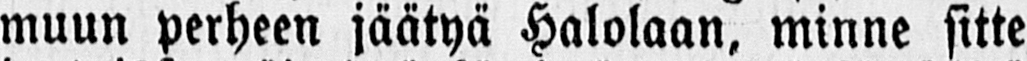muun perheen jäätyä Halolaan, minne sitte
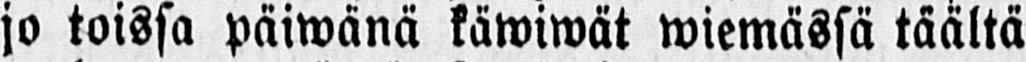jo toissa päiwänä käwiwät wiemässä täältä
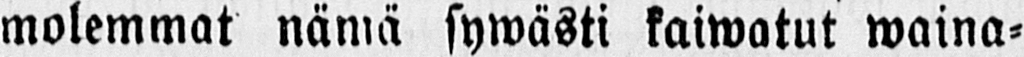molemmat nämä sywästi kaiwatut waina-
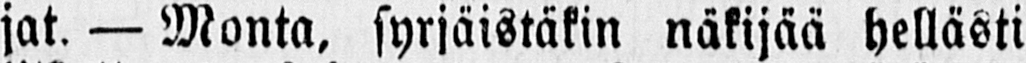jat. — Monta, syrjäistäkin näkijää hellästi
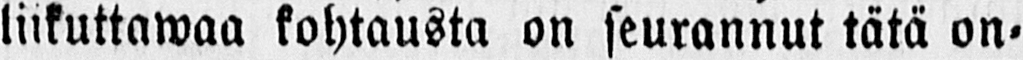liikuttawaa kohtausta on seurannut tätä on-
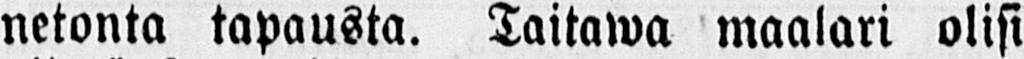netonta tapausta. Taitawa maalari olisi
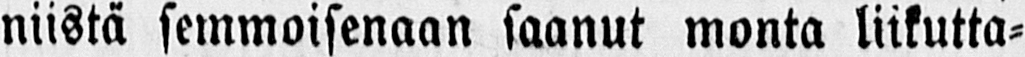niistä semmoisenaan saanut monta liikutta-
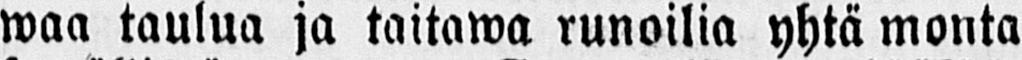waa taulua ja taitawa runoilia yhtä monta
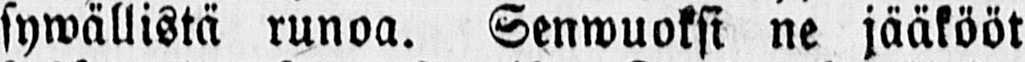sywällistä runoa. Senwuoksi ne jääkööt
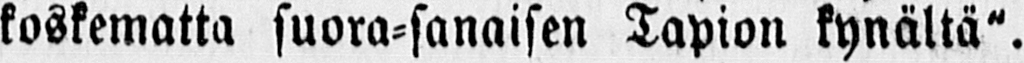koskematta suora-sanaisen Tapion kynältä".
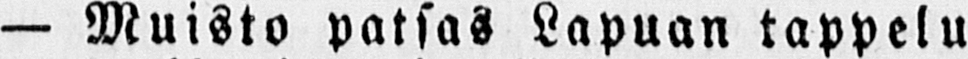— Muisto patsas Lapuan tappelu
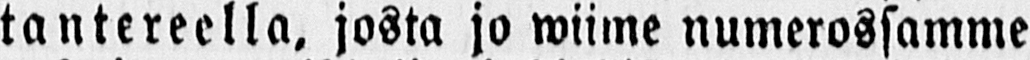tantereella, josta jo wiime numerossamme
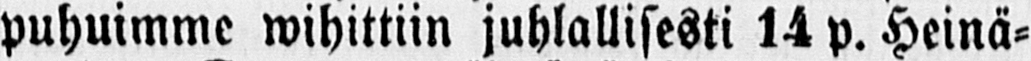puhuimme wihittiin juhlallisesti 14 p. Heinä-
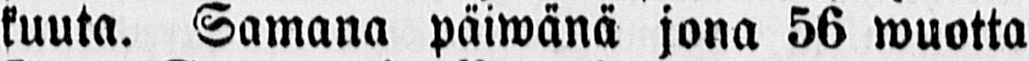kuuta. Samana päiwänä jona 56 wuotta
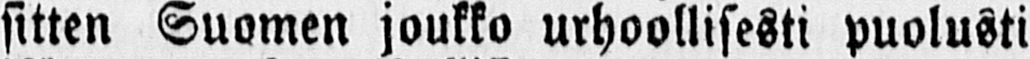sitten Suomen joukko urhoollisesti puolusti
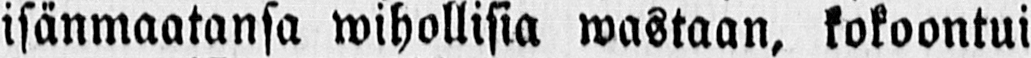isänmaatansa wihollisia wastaan, kokoontui
